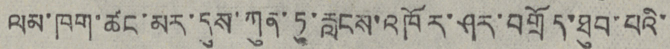ལམ་ཁག་ཚང་མར་དུས་ཀུན་ཏུ་རླངས་འཁོར་ཤར་བགྲོད་ཐུབ་པའི་
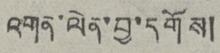འགན་ལེན་བྱ་དགོས།
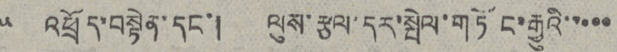༥ འཕྲོད་བསྟེན་དང་། ལུས་རྩལ་དར་སྤེལ་གཏོང་རྒྱུའི་་་་་
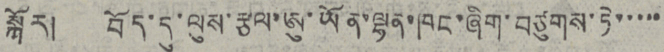སྐོར།  བོད་དུ་ལུས་རྩལ་ཨུ་ཡོན་ལྷན་ཁང་ཞིག་བཙུགས་ཏེ་་་་་
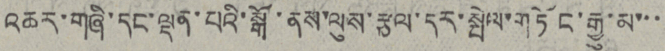འཆར་གཞི་དང་ལྡན་པའི་སྒོ་ནས་ལུས་རྩལ་དར་སྤེལ་གཏོང་རྒྱུ་མ་་་
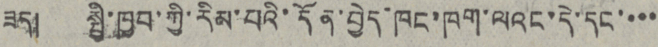ཟད།  སྤྱི་ཁྱབ་ཀྱི་རིམ་པའི་དོན་བྱེད་ཁང་ཁག་ལའང་དེ་དང་་་་
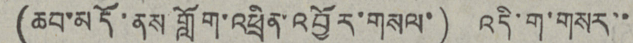( ཆབ་མདོ་ནས་གློག་འཕྲིན་འབྱོར་གསལ་ ) འདི་ག་གསར་་
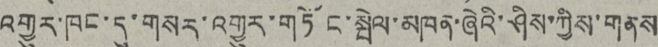འགྱུར་ཁང་དུ་གསར་འགྱུར་གཏོང་སྤེལ་མཁན་ཞེའི་ཤིས་ཀྱིས་གནས་
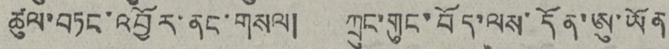ཚུལ་བཏང་འབྱོར་ནང་གསལ། ཀྲུང་གུང་བོད་ལས་དོན་ཨུ་ཡོན་
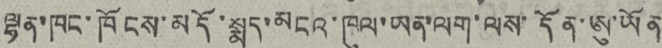ལྷན་ཁང་ཁོངས་མདོ་སྨད་མངའ་ཁུལ་ཡན་ལག་ལས་དོན་ཨུ་ཡོན་
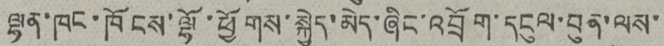ལྷན་ཁང་ཁོངས་ལྷོ་ཕྱོགས་སྐྱེད་མེད་ཞིང་འབྲོག་དངུལ་བུན་ལས་
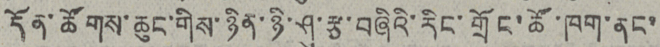དོན་ཚོགས་ཆུང་གིས་ཉིན་ཉི་ཤུ་རྩ་བཞིའི་རིང་གྲོང་ཚོ་ཁག་ནང་་
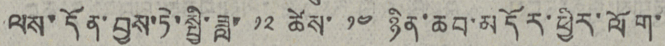ལས་དོན་བྱས་ཏེ་སྤྱི་ཟླ་ ༡༢ ཚེས་ ༡༤ ཉིན་ཆབ་མདོར་ཕྱིར་ལོག་
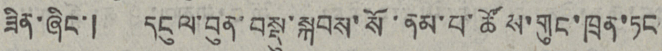ཟིན་ཞིང་། དངུལ་བུན་བསྡུ་སྐབས་སོ་ནམ་པ་ཚོས་གུང་ཁྲན་ཏང་
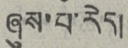ཞུས་པ་རེད།
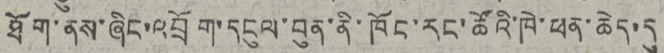ཐོག་ནས་ཞིང་འབྲོག་དངུལ་བུན་ནི་ཁོང་རང་ཚོའི་ཁེ་ཕན་ཆེད་དུ་
